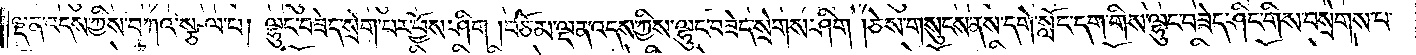ལྡན་འདས་ཀྱིས་བཀའ་སྩལ་པ། ལྷུང་བཟེད་སྲེག་པར་བྱོས་ཤིག །བཅོམ་ལྡན་འདས་ཀྱིས་ལྷུང་བཟེད་སྲེག་ཤིག །ཅེས་གསུངས་ནས་དགེ་སློང་དག་གིས་ལྷུང་བཟེད་ཤིང་གིས་བསྲེགས་པ་
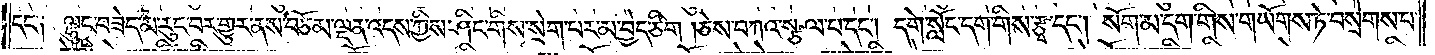དང༌། ལྷུང་བཟེད་མ་རུང་བར་གྱུར་ནས་བཅོམ་ལྡན་འདས་ཀྱིས་ཤིང་གིས་སྲེག་པར་མ་བྱེད་ཅིག །ཅེས་བཀའ་སྩལ་པ་དང༌། དགེ་སློང་དག་གིས་རྩྭ་དང༌། སོག་མ་དག་གིས་གཡོགས་ཏེ་བསྲེགས་པ་
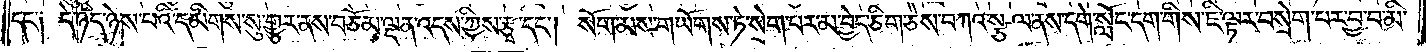དང་༑ དེ་ཉིད་ཉེས་པའི་དམིགས་སུ་གྱུར་ནས་བཅོམ་ལྡན་འདས་ཀྱིས་རྩྭ་དང༌། སོག་མས་གཡོགས་ཏེ་སྲེག་པར་མ་བྱེད་ཅིག་ཅེས་བཀའ་སྩལ་ནས་དགེ་སློང་དག་གིས་ཇི་ལྟར་བསྲེག་པར་བྱ་བ་མི་
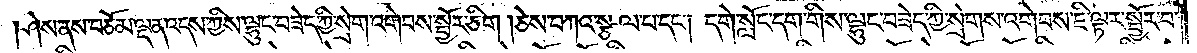ཤེས་ནས་བཅོམ་ལྡན་འདས་ཀྱིས་ལྷུང་བཟེད་ཀྱི་སྲེག་འགེབས་སྦྱོར་ཅིག །ཅེས་བཀའ་སྩལ་པ་དང༌། དགེ་སློང་དག་གིས་ལྷུང་བཟེད་ཀྱི་སྲེགས་འགེབས་ཇི་ལྟར་སྦྱོར་བ་
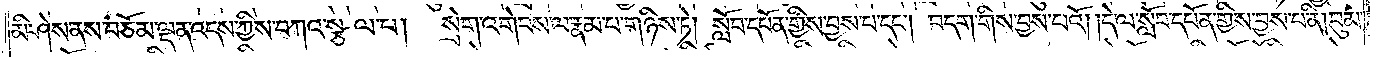མི་ཤེས་ནས་བཅོམ་ལྡན་འདས་ཀྱིས་བཀའ་སྩལ་པ། སྲེག་འགེབས་ལ་རྣམ་པ་གཉིས་ཏེ། སློབ་དཔོན་གྱིས་བྱས་པ་དང༌། བདག་གིས་བྱས་པའོ། །དེ་ལ་སློབ་དཔོན་གྱིས་བྱས་པ་ནི། བུམ་
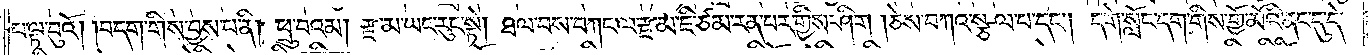པ་ལྟ་བུའོ། །བདག་གིས་བྱས་པ་ནི། ཕྲུ་བའམ། རྫ་མ་ཡང་རུང་སྟེ། ཐལ་བས་བཀང་ལ་རྫ་མ་ཇི་ཙམ་རན་པར་གྱིས་ཤིག །ཅེས་བཀའ་སྩལ་པ་དང༌། དགེ་སློང་དག་གིས་གྱོ་མོའི་ནང་དུ་དེ་
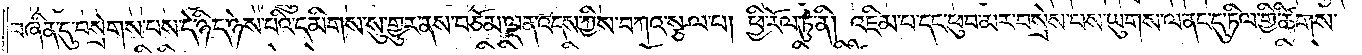བཞིན་དུ་བསྲེགས་པས་དེ་ཉིད་ཉེས་པའི་དམིགས་སུ་གྱུར་ནས་བཅོམ་ལྡན་འདས་ཀྱིས་བཀའ་སྩལ་པ། ཕྱི་རོལ་ཏུ་ནི། འཇིམ་པ་དང་ཕུབ་མར་བསྲེས་པས་ཡུགས་ལ་ནང་དུ་ཏིལ་གྱི་ཚིགས་
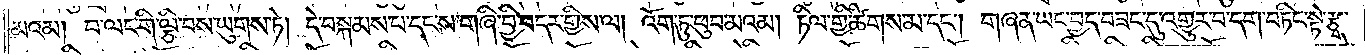མའམ། བ་ལང་གི་ལྕི་བས་ཡུགས་ཏེ། དེ་བསྐམས་པ་དང་ས་གཞི་བྱི་བདར་གྱིས་ལ། འོག་ཏུ་ཕུབ་མའམ། ཏིལ་གྱི་ཚིགས་མ་དང༌། གཞན་ཡང་བྱད་བཟང་དུ་འགྱུར་བ་དག་བཏིང་སྟེ་རྩྭ་
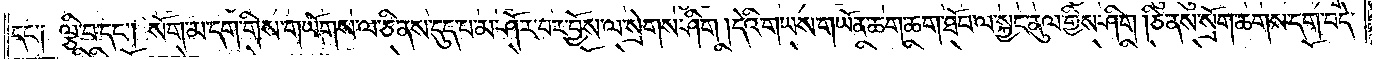དང༌། ལྕི་བ་དང༌། སོག་མ་དག་གིས་གཡོགས་ལ་ཅི་ནས་དུད་པ་མ་ཤོར་བར་བྱོས་ལ་སྲེགས་ཤིག །དེའི་གཡས་གཡོན་ཆག་ཆག་ཐོབ་ལ་སྐྱང་ནུལ་གྱིས་ཤིག །ཅི་ནས་སྲོག་ཆགས་དག་བདེ་
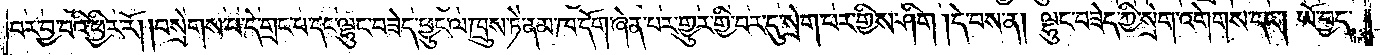བར་བྱ་བའི་ཕྱིར་རོ། །བསྲེགས་པ་དེ་གྲང་པ་དང་ལྷུང་བཟེད་ཕྱུང་ལ་ཁྲུས་ཏེ་ནམ་ཁ་དོག་ཞེན་པར་གྱུར་གྱི་བར་དུ་སྲེག་པར་གྱིས་ཤིག །དེ་བས་ན། ལྷུང་བཟེད་ཀྱི་སྲེག་འགེགས་དང༌། ཡོ་བྱད་
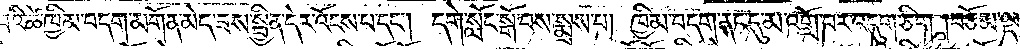པའི་ཚེ་ཁྱིམ་བདག་མགོན་མེད་ཟས་སྦྱིན་དེར་འོངས་པ་དང༌། དགེ་སློང་སྒོ་བས་སྨྲས་པ། ཁྱིམ་བདག་ནང་དུ་མ་འགྲོ་བར་འདུག་ཅིག །བཅོམ་ལྡན་
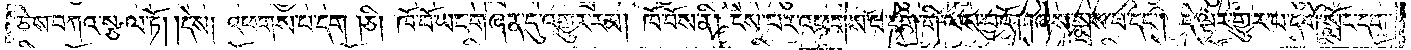ཅེས་བཀའ་སྩལ་ཏོ། །དེས། འཕགས་པ་དག །ཅི། ཁོ་བོ་ཡང་གཞན་དུ་འགྱུར་རམ། ཁོ་བོས་ནི། ངེས་པར་འཕགས་པ་དག་གི་ལས་བྱའོ། །ཞེས་སྨྲས་པ་དང༌། དེ་ལྟར་གྱུར་པ་དགེ་སློང་དག་
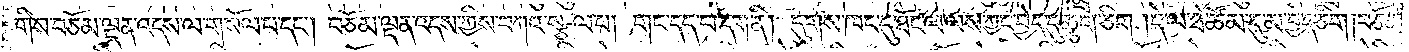གིས་བཅོམ་ལྡན་འདས་ལ་གསོལ་པ་དང༌། བཅོམ་ལྡན་འདས་ཀྱིས་བཀའ་སྩལ་པ། གང་དད་པ་དག་ནི། དུགས་ཁང་དུ་ཐོང་ལ་ལས་ཀྱང་བྱེད་དུ་ཆུག་ཅིག །དེ་ལ་ཐེ་ཚོམ་དུ་མ་བྱེད་ཅིག །བཅོམ་
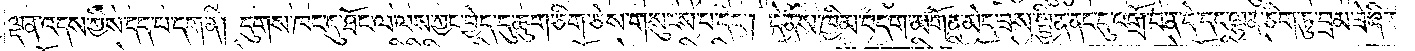ལྡན་འདས་ཀྱིས་དད་པ་དག་ནི། དུགས་ཁང་དུ་ཐོང་ལ་ལས་ཀྱང་བྱེད་དུ་ཆུག་ཅིག་ཅེས་གསུངས་པ་དང༌། དེ་ནས་ཁྱིམ་བདག་མགོན་མེད་ཟས་སྦྱིན་ནང་དུ་འགྲོ་བ་ན་དེ་དང་ལྷན་ཅིག་ཏུ་བྲམ་ཟེ་ཞིག་
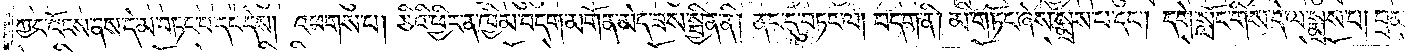ཀྱང་འོངས་ནས་དེ་མ་བཏང་བ་དང་དེས། འཕགས་པ། ཅིའི་ཕྱིར་ན་ཁྱིམ་བདག་མགོན་མེད་ཟས་སྦྱིན་ནི། ནང་དུ་བཏང་ལ། བདག་ནི། མི་གཏོང་ཞེས་སྨྲས་པ་དང༌། དགེ་སློང་གིས་དེ་ལ་སྨྲས་པ། བྲམ་
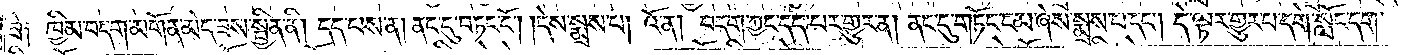ཟེ༑ ཁྱིམ་བདག་མགོན་མེད་ཟས་སྦྱིན་ནི། དད་པས་ན། ནང་དུ་བཏང་ངོ༌། །དེས་སྨྲས་པ། འོ་ན། བདག་ཀྱང་དད་པར་གྱུར་ན། ནང་དུ་གཏོང་ངམ་ཞེས་སྨྲས་པ་དང༌། དེ་ལྟར་གྱུར་པ་དགེ་སློང་དག་
